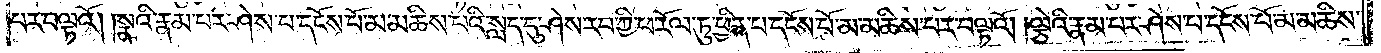པར་བལྟའོ། །སྣའི་རྣམ་པར་ཤེས་པ་དངོས་པོ་མ་མཆིས་པའི་སླད་དུ་ཤེས་རབ་ཀྱི་ཕ་རོལ་ཏུ་ཕྱིན་པ་དངོས་པོ་མ་མཆིས་པར་བལྟའོ། །ལྕེའི་རྣམ་པར་ཤེས་པ་དངོས་པོ་མ་མཆིས་
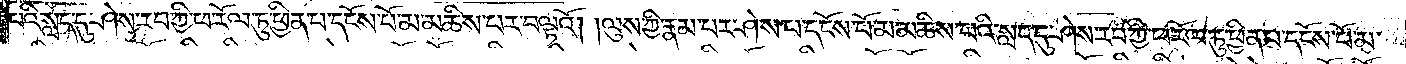པའི་སླད་དུ་ཤེས་རབ་ཀྱི་ཕ་རོལ་ཏུ་ཕྱིན་པ་དངོས་པོ་མ་མཆིས་པར་བལྟའོ། །ལུས་ཀྱི་རྣམ་པར་ཤེས་པ་དངོས་པོ་མ་མཆིས་པའི་སླད་དུ་ཤེས་རབ་ཀྱི་ཕ་རོལ་ཏུ་ཕྱིན་པ་དངོས་པོ་མ་
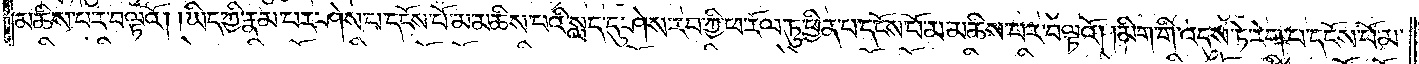མཆིས་པར་བལྟའོ། །ཡིད་ཀྱི་རྣམ་པར་ཤེས་པ་དངོས་པོ་མ་མཆིས་པའི་སླད་དུ་ཤེས་རབ་ཀྱི་ཕ་རོལ་ཏུ་ཕྱིན་པ་དངོས་པོ་མ་མཆིས་པར་བལྟའོ། །མིག་གི་འདུས་ཏེ་རེག་པ་དངོས་པོ་མ་
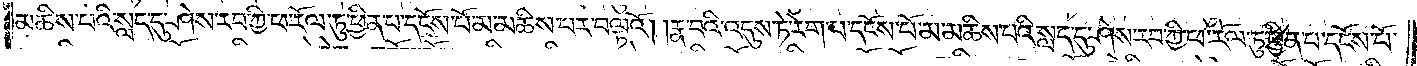མཆིས་པའི་སླད་དུ་ཤེས་རབ་ཀྱི་ཕ་རོལ་ཏུ་ཕྱིན་པ་དངོས་པོ་མ་མཆིས་པར་བལྟའོ། །རྣ་བའི་འདུས་ཏེ་རེག་པ་དངོས་པོ་མ་མཆིས་པའི་སླད་དུ་ཤེས་རབ་ཀྱི་ཕ་རོལ་ཏུ་ཕྱིན་པ་དངོས་པོ་
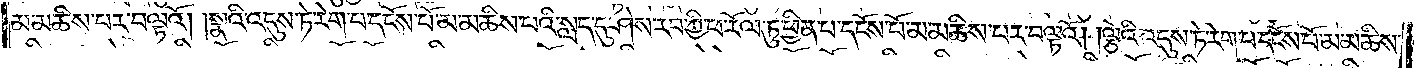མ་མཆིས་པར་བལྟའོ། །སྣའི་འདུས་ཏེ་རེག་པ་དངོས་པོ་མ་མཆིས་པའི་སླད་དུ་ཤེས་རབ་ཀྱི་ཕ་རོལ་ཏུ་ཕྱིན་པ་དངོས་པོ་མ་མཆིས་པར་བལྟའོ། །ལྕེའི་འདུས་ཏེ་རེག་པ་དངོས་པོ་མ་མཆིས་
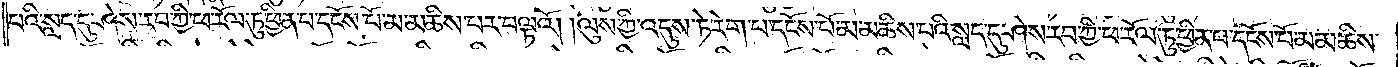པའི་སླད་དུ་ཤེས་རབ་ཀྱི་ཕ་རོལ་ཏུ་ཕྱིན་པ་དངོས་པོ་མ་མཆིས་པར་བལྟའོ། །ལུས་ཀྱི་འདུས་ཏེ་རེག་པ་དངོས་པོ་མ་མཆིས་པའི་སླད་དུ་ཤེས་རབ་ཀྱི་ཕ་རོལ་ཏུ་ཕྱིན་པ་དངོས་པོ་མ་མཆིས་
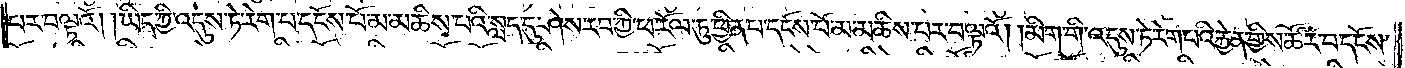པར་བལྟའོ། །ཡིད་ཀྱི་འདུས་ཏེ་རེག་པ་དངོས་པ་མ་མཆིས་པའི་སླད་དུ་ཤེས་རབ་ཀྱི་ཕ་རོལ་ཏུ་ཕྱིན་པ་དངོས་པོ་མ་མཆིས་པར་བལྟའོ། །མིག་གི་འདུས་ཏེ་རེག་པའི་རྐྱེན་གྱིས་ཚོར་བ་དངོས་
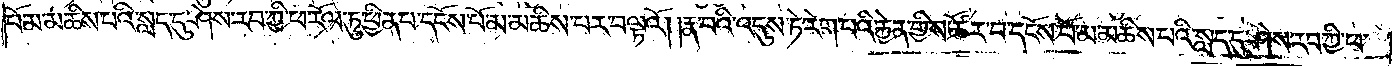པོ་མ་མཆིས་པའི་སླད་དུ་ཤེས་རབ་ཀྱི་ཕ་རོལ་ཏུ་ཕྱིན་པ་དངོས་པོ་མ་མཆིས་པར་བལྟའོ། །རྣ་བའི་འདུས་ཏེ་རེག་པའི་རྐྱེན་གྱིས་ཚོར་བ་དངོས་པོ་མ་མཆིས་པའི་སླད་དུ་ཤེས་རབ་ཀྱི་ཕ་
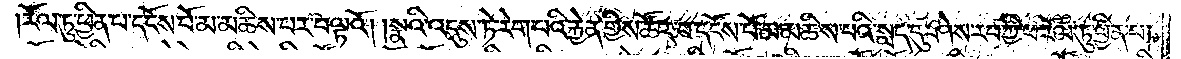རོལ་ཏུ་ཕྱིན་པ་དངོས་པོ་མ་མཆིས་པར་བལྟའོ། །སྣའི་འདུས་ཏེ་རེག་པའི་རྐྱེན་གྱིས་ཚོར་བ་དངོས་པོ་མ་མཆིས་པའི་སླད་དུ་ཤེས་རབ་ཀྱི་ཕ་རོལ་ཏུ་ཕྱིན་པ་
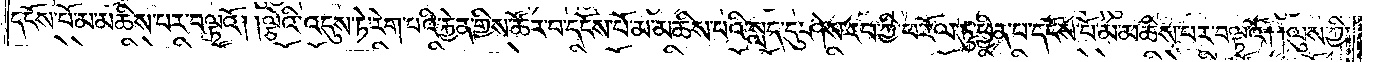དངོས་པོ་མ་མཆིས་པར་བལྟའོ། །ལྕེའི་འདུས་ཏེ་རེག་པའི་རྐྱེན་གྱིས་ཚོར་བ་དངོས་པོ་མ་མཆིས་པའི་སླད་དུ་ཤེས་རབ་ཀྱི་ཕ་རོལ་ཏུ་ཕྱིན་པ་དངོས་པོ་མ་མཆིས་པར་བལྟའོ། །ལུས་ཀྱི་
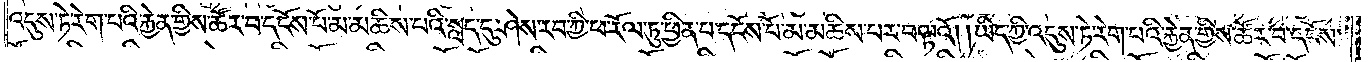འདུས་ཏེ་རེག་པའི་རྐྱེན་གྱིས་ཚོར་བ་དངོས་པོ་མ་མཆིས་པའི་སླད་དུ་ཤེས་རབ་ཀྱི་ཕ་རོལ་ཏུ་ཕྱིན་པ་དངོས་པོ་མ་མཆིས་པར་བལྟའོ། །ཡིད་ཀྱི་འདུས་ཏེ་རེག་པའི་རྐྱེན་གྱིས་ཚོར་བ་དངོས་
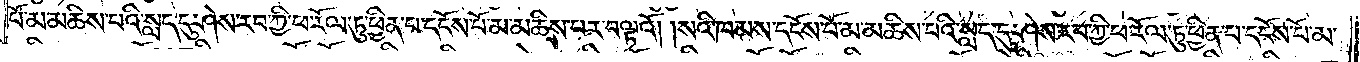པོ་མ་མཆིས་པའི་སླད་དུ་ཤེས་རབ་ཀྱི་ཕ་རོལ་ཏུ་ཕྱིན་པ་དངོས་པོ་མ་མཆིས་པར་བལྟའོ། །སའི་ཁམས་དངོས་པོ་མ་མཆིས་པའི་སླད་དུ་ཤེས་རབ་ཀྱི་ཕ་རོལ་ཏུ་ཕྱིན་པ་དངོས་པོ་མ་
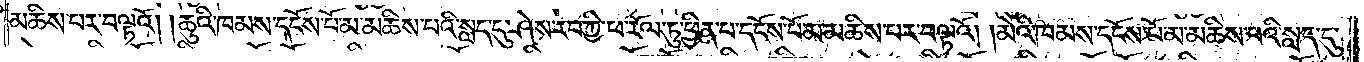མཆིས་པར་བལྟའོ། །ཆུའི་ཁམས་དངོས་པོ་མ་མཆིས་པའི་སླད་དུ་ཤེས་རབ་ཀྱི་ཕ་རོལ་ཏུ་ཕྱིན་པ་དངོས་པོ་མ་མཆིས་པར་བལྟའོ། །མེའི་ཁམས་དངོས་པོ་མ་མཆིས་པའི་སླད་དུ་
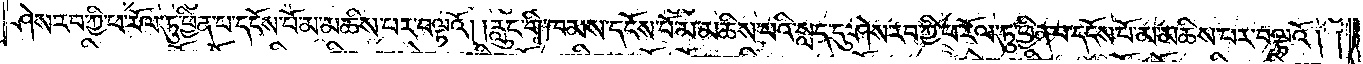ཤེས་རབ་ཀྱི་ཕ་རོལ་ཏུ་ཕྱིན་པ་དངོས་པོ་མ་མཆིས་པར་བལྟའོ། །རླུང་གི་ཁམས་དངོས་པོ་མ་མཆིས་པའི་སླད་དུ་ཤེས་རབ་ཀྱི་ཕ་རོལ་ཏུ་ཕྱིན་པ་དངོས་པོ་མ་མཆིས་པར་བལྟའོ། །
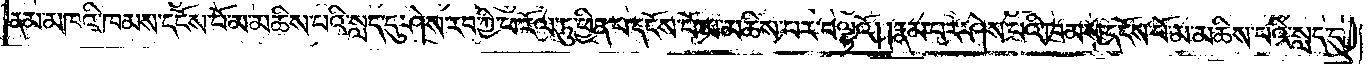ནམ་མཁའི་ཁམས་དངོས་པོ་མ་མཆིས་པའི་སླད་དུ་ཤེས་རབ་ཀྱི་ཕ་རོལ་ཏུ་ཕྱིན་པ་དངོས་པོ་མ་མཆིས་པར་བལྟའོ། །རྣམ་པར་ཤེས་པའི་ཁམས་དངོས་པོ་མ་མཆིས་པའི་སླད་དུ་
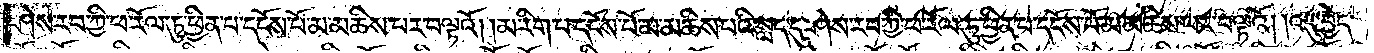ཤེས་རབ་ཀྱི་ཕ་རོལ་ཏུ་ཕྱིན་པ་དངོས་པོ་མ་མཆིས་པར་བལྟའོ། །མ་རིག་པ་དངོས་པོ་མ་མཆིས་པའི་སླད་དུ་ཤེས་རབ་ཀྱི་ཕ་རོལ་ཏུ་ཕྱིན་པ་དངོས་པོ་མ་མཆིས་པར་བལྟའོ། །འདུ་བྱེད་
